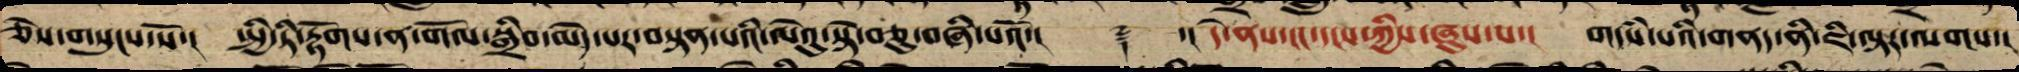ཅེས་གསུངས་སོ་། སྤྱི་ཏི་རྟོགས་ན་གོལ་སྒྲིབ་མེད་པར་བསྟན་པའི་ལེའུ་སྟེ་བཅུ་བཞི་པའོ་།། ༈ ་།། དེ་ནས་ངང་དངས་ཀྱིས་ཞུས་པ་། གདཾས་པའི་གནད་ནི་ཇི་ལྟར་ལགས་།
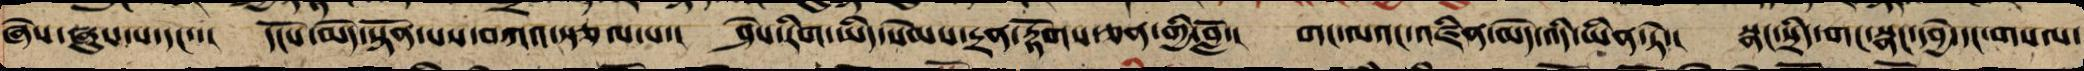ཞེས་ཞུས་པ་དང་་། དངོས་མེད་སྟོན་པས་བཀའ་སྩལ་པ་། ཤེས་རིག་ཡིད་སེམས་དྲན་རྟོགས་ཅན་གྱི་བློ་། གང་ལའང་འཛིན་མེད་འདི་ཡིན་ཏེ་། སྣང་སྲིད་གང་སྣང་དབྱེ་དང་གསལ་
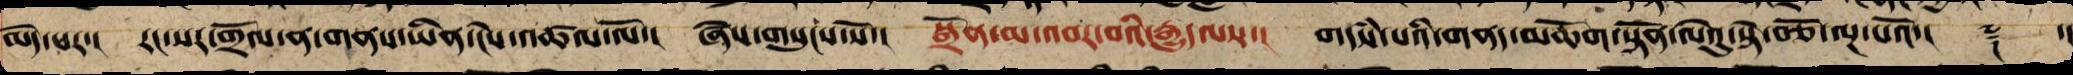མེད་པར་། རང་སར་གྲོལ་ན་གནས་ཡིན་ངེས་འཚལ་ལོ་། ཞེས་གསུངས་སོ་། སྒྲོན་མ་འབར་བའི་རྒྱུད་ལས་། གདཾས་པའི་གནད་མཆོག་བསྟན་པའི་ལེའུ་སྟེ་བཅོ་ལྔ་པའོ་།། ༈ ་
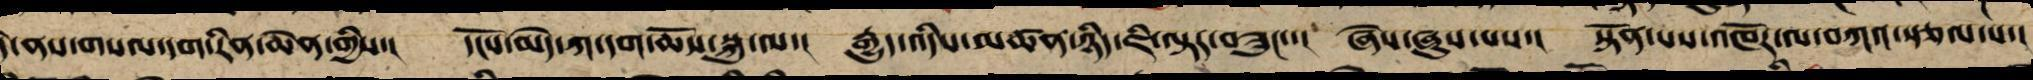་ནས་གསལ་དག་རིན་ཆེན་གྱིས་། དངོས་མེད་ཀ་དག་ཆོས་སྐུ་ལ་། རྒྱུད་འདིས་མཚན་ཉིད་ཇི་ལྟར་བཟུང་་། ཞེས་ཞུས་པས་། སྟོན་པས་འཁོར་ལ་བཀའ་སྩལ་པ་།
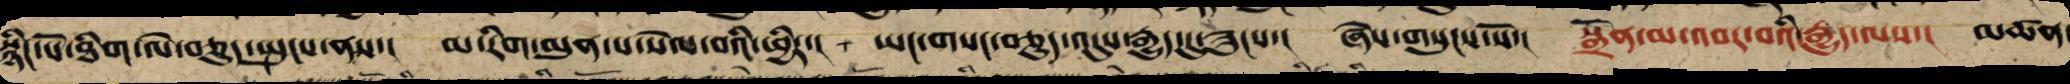སྙིང་པོ་ཐིག་ལེ་བཅུད་སྤུངས་ནས་། མ་རིག་མུན་པ་སེལ་བའི་ཕྱིར་། ཡང་གསང་བཅུད་འདུས་རྒྱུད་དུ་ཟུངས་། ཞེས་གསུངས་སོ་། སྒྲོན་མ་འབར་བའི་རྒྱུད་ལས་། མཚན་
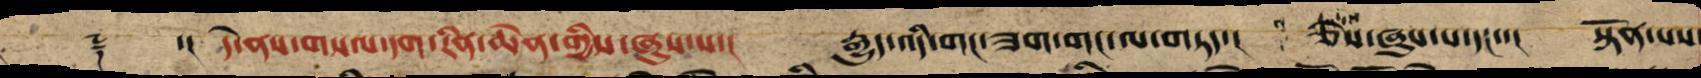༈ ་། དེ་ནས་གསལ་དག་རིན་ཆེན་གྱིས་ཞུས་པ་། རྒྱུད་འདི་གང་ཟག་གང་ལ་གཏད་། ཅེས་ཞུས་པ་དང་་། སྟོན་པས
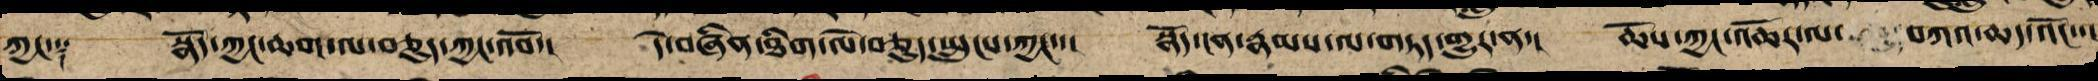ཀྱང་༑ སྣོད་ཀྱང་ཆག་ལ་བཅུད་ཀྱང་འབོ་། དེ་བཞིན་ཐིག་ལེ་བཅུད་སྤུངས་ཀྱང་་། སྣོད་ངན་རྣམས་ལ་གཏད་གྱུར་ན་། ཆོས་ཀྱང་འཆོར་ལ་ བཀའ་ཆད་འོང་་།
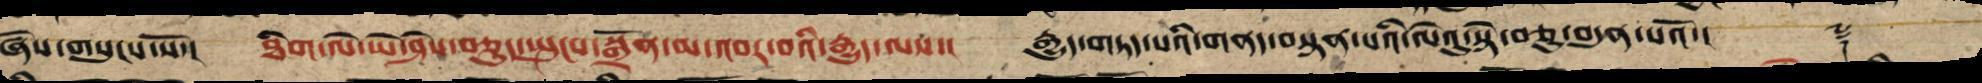ཞེས་གསུངས་སོ་། ཐིག་ལེ་ཡེ་ཤེས་བཅུད་སྤུངས་སྒྲོན་མ་འབར་བའི་རྒྱུད་ལས་། རྒྱུད་གཏད་པའི་གནད་བསྟན་པའི་ལེའུ་སྟེ་བཅུ་བདུན་པའོ་།། ༈
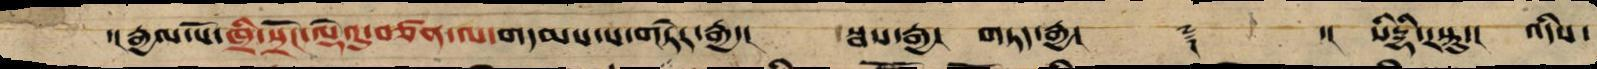་།རྒྱལ་པོ་ཁྲི་སྲོང་ལྡེའུ་བཙན་ལ་གདམས་པ་གཏེར་རྒྱ་། སྦས་རྒྱ། གཏད་རྒྱ།། ༈ ་། སིདྡྷི་རསྟུ་། འདིས་
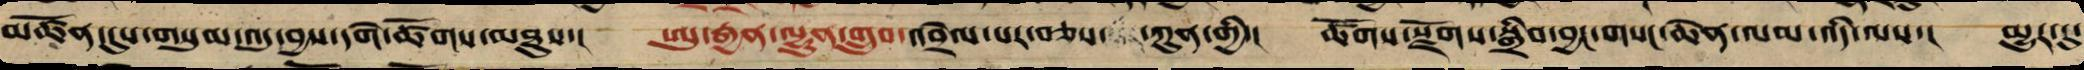མཚོན་དུས་གསུམ་འདུ་བྱས་དགེ་ཚོགས་མཐུས་། ཨུ་རྒྱན་ལྷུན་གྲུབ་འབྲེལ་པར་བཅས་ ་ཀུན་གྱི་། ཚོགས་རྫོགས་སྒྲིབ་བྱང་གསང་ཆེན་ལམ་འདི་ལས་། མྱུར་དུ་
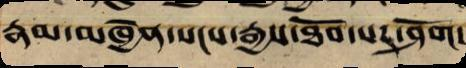རྣམ་མཁྱེན་སངས་རྒྱས་ཐོབ་པར་ཤོག།
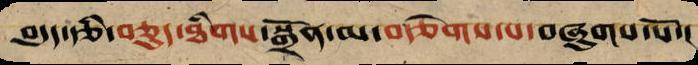བདུད་རྩི་བཅུད་ཐིགས་སྒྲོན་མ་བརྩེགས་པ་བཞུགས་སོ་།
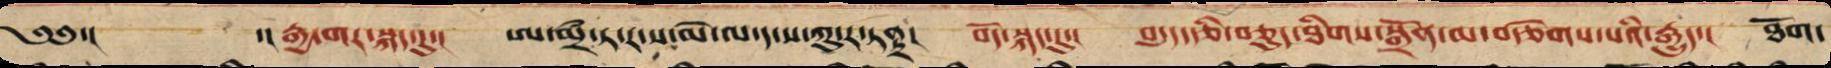༄༅་། ་།རྒྱ་གར་སྐད་དུ་། ཨ་མྲྀ་ཏ་ར་ས་མེ་ལ་ད་ས་ཀུ་ར་ཏནྟྲ། བོད་སྐད་དུ་། བདུད་རྩི་བཅུད་ཐིགས་སྒྲོན་མ་བརྩེགས་པའི་རྒྱུད་། ཐོག་
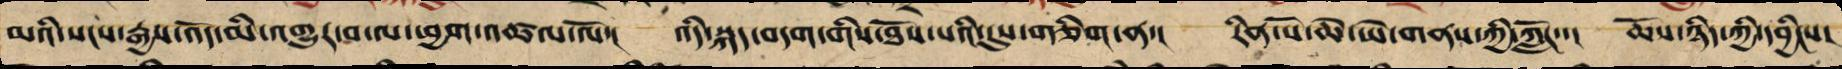མའི་སངས་རྒྱས་འོད་མི་འགྱུར་བ་ལ་ཕྱག་འཚལ་ལོ་། འདི་སྐད་བདག་གིས་ཐོས་པའི་དུས་གཅིག་ན་། རིན་པོ་ཆེ་ཡེ་གནས་ཀྱི་ཀློང་་། ཆོས་ཉིད་ཀྱི་དབྱིངས།
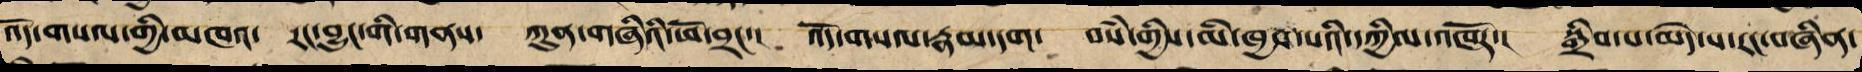འོད་གསལ་གྱི་མཁའ་ རང་བྱུང་གི་གནས་ ཀུན་གཞིའི་ཕོ་བྲང་། འོད་གསལ་རྣམ་དག་ བསཾ་གྱིས་མི་ཁྱབ་པའི་དཀྱིལ་འཁོར་། སྒྲིབ་པ་མེད་པ་རང་བཞིན་
